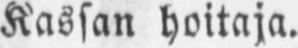Kassan hoitaja.
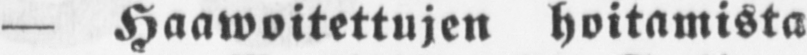— Haawoitettujen hoitamista
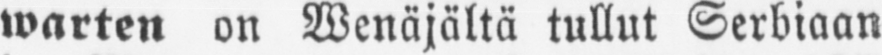warten on Wenäjältä tullut Serbiaan
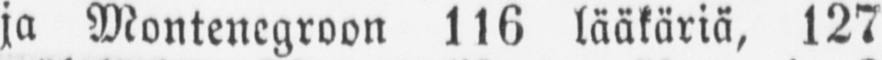ja Montenegroon 116 lääkäriä, 127
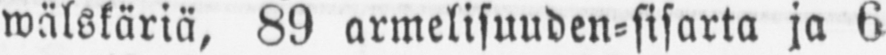wälskäriä, 89 armelisuuden-sisarta ja 6
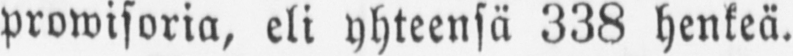prowisoria, eli yhteensä 338 henkeä.
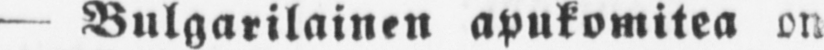— Bulgarilainen apukomitea on
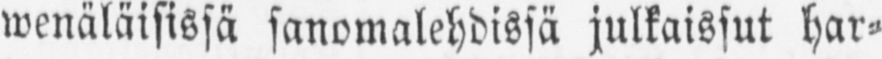wenäläisissä sanomalehdissä julkaissut har-
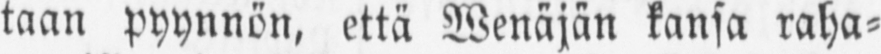taan pyynnön, että Wenäjän kansa raha-
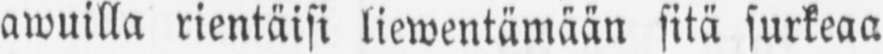awuilla rientäisi liewentämään sitä surkeaa
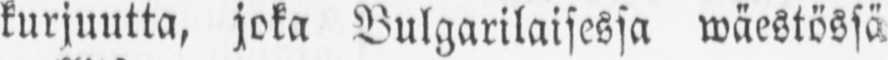kurjuutta, joka Bulgarilaisessa wäestössä
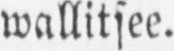wallitsee.
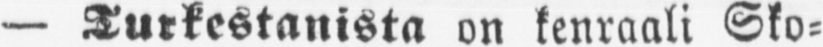— Turkestanista on kenraali Sko-
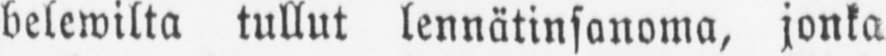belewilta tullut lennätinsanoma, jonka
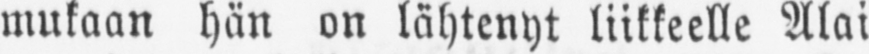mukaan hän on lähtenyt liikkeelle Alai-
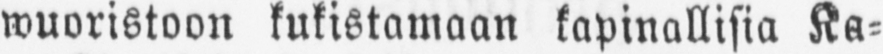wuoristoon kukistamaan kapinallisia Ka-
